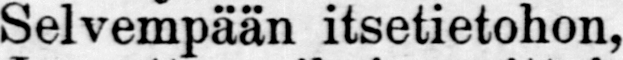Se1vempään itsetietohon,
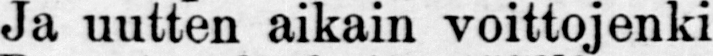ja uutten aikain voittojenki
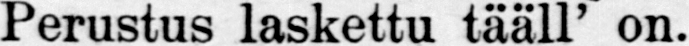Perustus laskettu tääll' on.
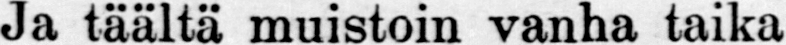ja täältä muistoin vanha taika
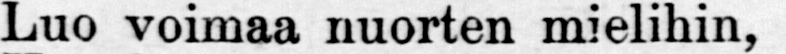Luo voimaa nuorten mielihin,
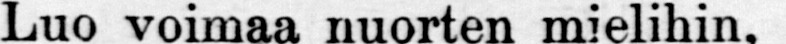Luo kompastuupi uusi aika
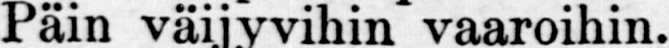Päin väijyvihin vaaroihin.
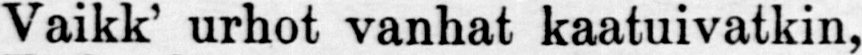Vaikk' urhot vanhat kaatuivatkin,
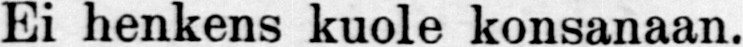Ei henkens kuole konsanaan.
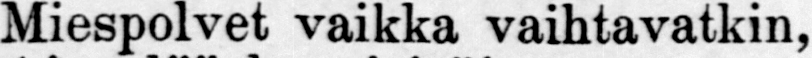Miespolvet vaikka vaihtavatkin,
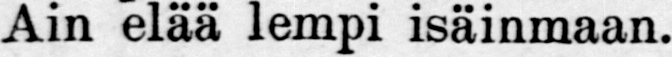Ain elää lempi isäinmaan.
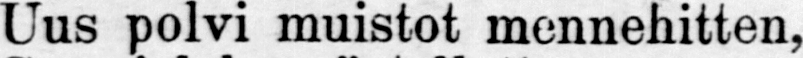Uus polvi muistot mennehitten,
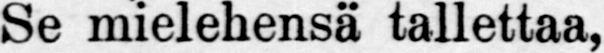Se mielehensä tallettaa,
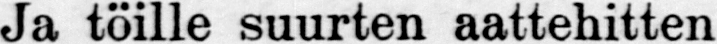ja töille suurten aattehitten
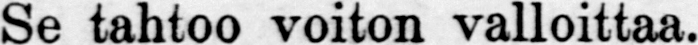Se tahtoo voiton valloittaa.
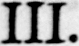III.
